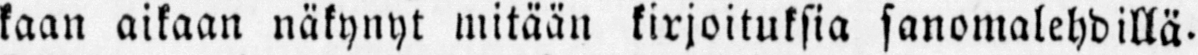kaan aikaan näkynyt mitään kirjoituksia sanomalehdillä.
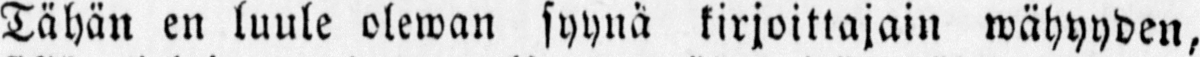Tähän en luule olewan syynä kirjoittajani wähyyden,
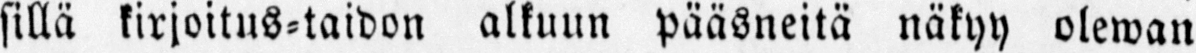sillä kirjoitus-taidon alkuun pääsneitä näkyy olewan
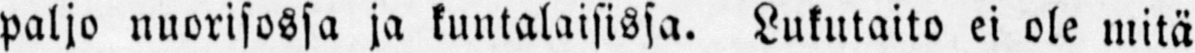paljo nuorisossa ja kuntalaisissa. Lukutaito ei ole mitä
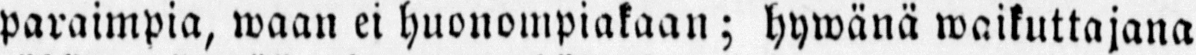paraimpia, waan ei huonompiakaan; hywänä waikuttajana
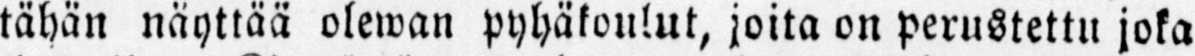tähän näyttää olewan pyhäkoulut, joita on perustettu joka
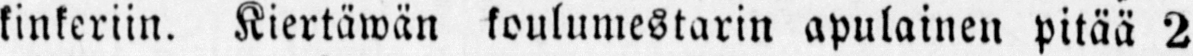kinkeriin. Kiertäwän koulumestarin apulainen pitää 2
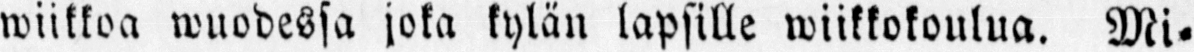wiikkoa wuodessa joka kylän lapsille wiikkokoulua. Mi-
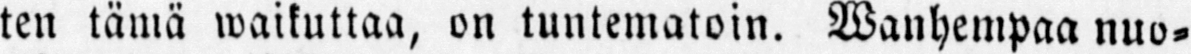ten tämä waikuttaa, on tuntematoin. Wanhempaa nuo-
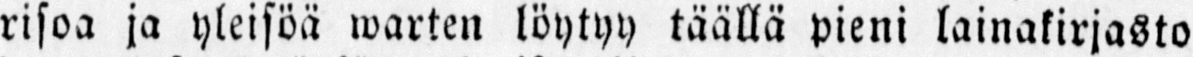risoa ja yleisöä warten löytyy täällä pieni lainakirjasto
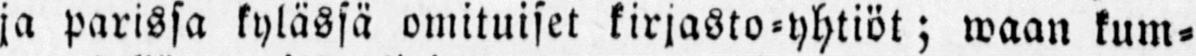ja parissa kylässä omituiset kirjasto-yhtiöt; waan kum-
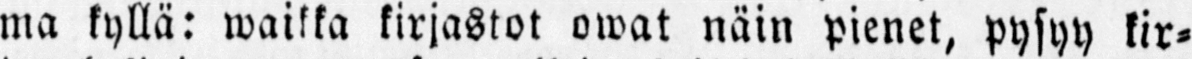ma kyllä: waikka kirjastot owat näin pienet, pysyy kir-
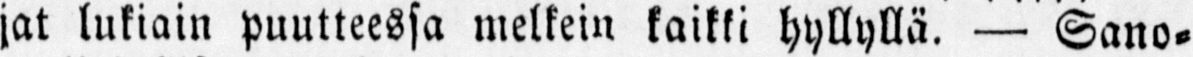jat lukiain puutteessa melkein kaikki hyllyllä. — Sano-
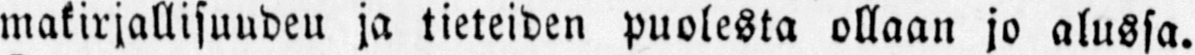makirjallisuudeu ja tieteiden puolesta ollaan jo alussa.
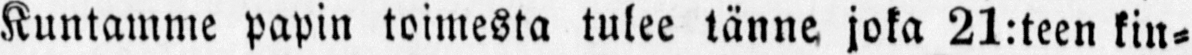Kuntamme papin toimesta tulee tänne joka 21:teen kin-
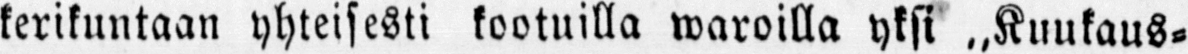kerikuntaan yhteisesti kootuilla waroilla yksi „Kuukaus-
